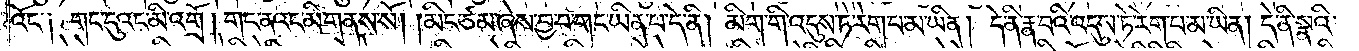འོང༌། གང་དུའང་མི་འགྲོ། གང་ནའང་མི་གནས་སོ། །མིང་ཙམ་ཞེས་བྱ་བ་གང་ཡིན་པ་དེ་ནི། མིག་གི་འདུས་ཏེ་རེག་པ་མ་ཡིན། དེ་ནི་རྣ་བའི་འདུས་ཏེ་རེག་པ་མ་ཡིན། དེ་ནི་སྣའི་
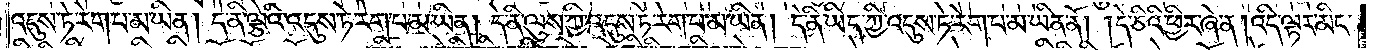འདུས་ཏེ་རེག་པ་མ་ཡིན། དེ་ནི་ལྕེའི་འདུས་ཏེ་རེག་པ་མ་ཡིན། དེ་ནི་ལུས་ཀྱི་འདུས་ཏེ་རེག་པ་མ་ཡིན། དེ་ནི་ཡིད་ཀྱི་འདུས་ཏེ་རེག་པ་མ་ཡིན་ནོ། །དེ་ཅིའི་ཕྱིར་ཞེ་ན། འདི་ལྟར་མིང་
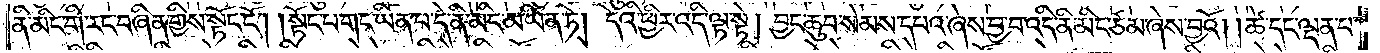ནི་མིང་གི་རང་བཞིན་གྱིས་སྟོང་ངོ༌། །སྟོང་པ་གང་ཡིན་པ་དེ་ནི་མིང་མ་ཡིན་ཏེ། དེའི་ཕྱིར་འདི་ལྟ་སྟེ། བྱང་ཆུབ་སེམས་དཔའ་ཞེས་བྱ་བ་འདི་ནི་མིང་ཙམ་ཞེས་བྱའོ། །ཚེ་དང་ལྡན་པ་
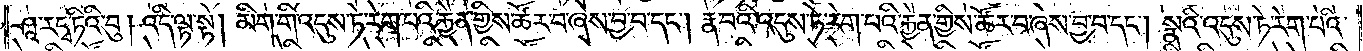ཤཱ་ར་དྭ་ཏིའི་བུ། འདི་ལྟ་སྟེ། མིག་གི་འདུས་ཏེ་རེག་པའི་རྐྱེན་གྱིས་ཚོར་བ་ཞེས་བྱ་བ་དང༌། རྣ་བའི་འདུས་ཏེ་རེག་པའི་རྐྱེན་གྱིས་ཚོར་བ་ཞེས་བྱ་བ་དང༌། སྣའི་འདུས་ཏེ་རེག་པའི་
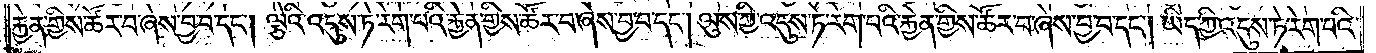རྐྱེན་གྱིས་ཚོར་བ་ཞེས་བྱ་བ་དང༌། ལྕེའི་འདུས་ཏེ་རེག་པའི་རྐྱེན་གྱིས་ཚོར་བ་ཞེས་བྱ་བ་དང༌། ལུས་ཀྱི་འདུས་ཏེ་རེག་པའི་རྐྱེན་གྱིས་ཚོར་བ་ཞེས་བྱ་བ་དང༌། ཡིད་ཀྱི་འདུས་ཏེ་རེག་པའི་
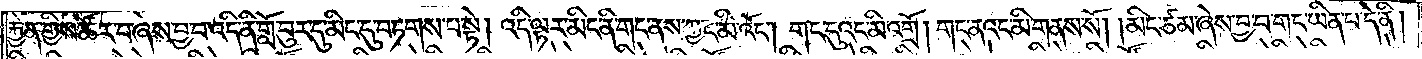རྐྱེན་གྱིས་ཚོར་བ་ཞེས་བྱ་བ་འདི་ནི་གློ་བུར་དུ་མིང་དུ་བཏགས་པ་སྟེ། འདི་ལྟར་མིང་ནི་གང་ནས་ཀྱང་མི་འོང༌། གང་དུའང་མི་འགྲོ། གང་ནའང་མི་གནས་སོ། །མིང་ཙམ་ཞེས་བྱ་བ་གང་ཡིན་པ་དེ་ནི།
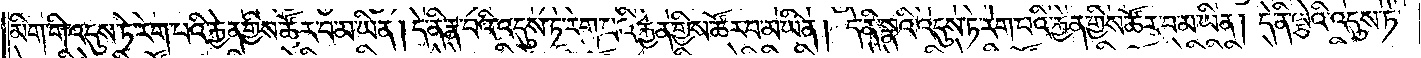མིག་གི་འདུས་ཏེ་རེག་པའི་རྐྱེན་གྱིས་ཚོར་བ་མ་ཡིན། དེ་ནི་རྣ་བའི་འདུས་ཏེ་རེག་པའི་རྐྱེན་གྱིས་ཚོར་བ་མ་ཡིན། དེ་ནི་སྣའི་འདུས་ཏེ་རེག་པའི་རྐྱེན་གྱིས་ཚོར་བ་མ་ཡིན། དེ་ནི་ལྕེའི་འདུས་ཏེ་
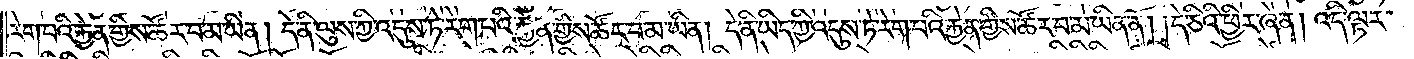རེག་པའི་རྐྱེན་གྱིས་ཚོར་བ་མ་ཡིན། དེ་ནི་ལུས་ཀྱི་འདུས་ཏེ་རེག་པའི་རྐྱེན་གྱིས་ཚོར་བ་མ་ཡིན། ད་ནི་ཡིད་ཀྱི་འདུས་ཏེ་རེག་པའི་རྐྱེན་གྱིས་ཚོར་བ་མ་ཡིན་ནོ། །དེ་ཅིའི་ཕྱིར་ཞེ་ན། འདི་ལྟར་
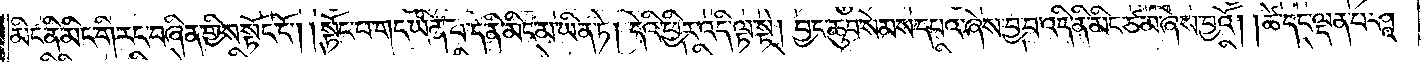མིང་ནི་མིང་གི་རང་བཞིན་གྱིས་སྟོང་ངོ༌། །སྟོང་པ་གང་ཡིན་པ་དེ་ནི་མིང་མ་ཡིན་ཏེ། དེའི་ཕྱིར་འདི་ལྟ་སྟེ། བྱང་ཆུབ་སེམས་དཔའ་ཞེས་བྱ་བ་འདི་ནི་མིང་ཙམ་ཞེས་བྱའོ། །ཚེ་དང་ལྡན་པ་ཤཱ་
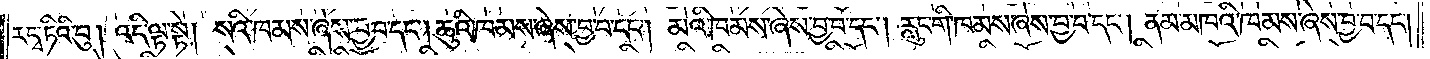ར་དྭ་ཏིའི་བུ། འདི་ལྟ་སྟེ། སའི་ཁམས་ཞེས་བྱ་བ་དང༌། ཆུའི་ཁམས་ཞེས་བྱ་བ་དང༌། མེའི་ཁམས་ཞེས་བྱ་བ་དང༌། རླུང་གི་ཁམས་ཞེས་བྱ་བ་དང༌། ནམ་མཁའི་ཁམས་ཞེས་བྱ་བ་དང༌།
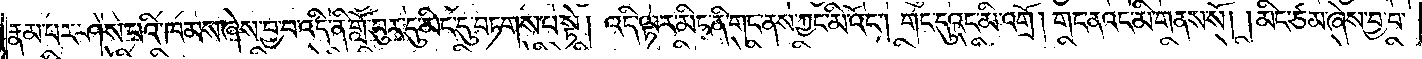རྣམ་པར་ཤེས་པའི་ཁམས་ཞེས་བྱ་བ་འདི་ནི་གློ་བུར་དུ་མིང་དུ་བཏགས་པ་སྟེ། འདི་ལྟར་མིང་ནི་གང་ནས་ཀྱང་མི་འོང༌། གང་དུའང་མི་འགྲོ། གང་ནའང་མི་གནས་སོ། །མིང་ཙམ་ཞེས་བྱ་བ་
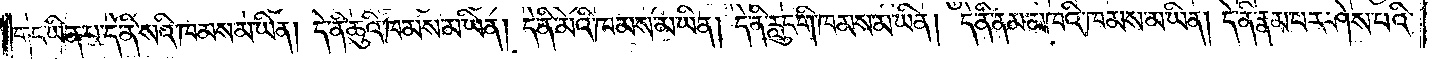གང་ཡིན་པ་དེ་ནི་སའི་ཁམས་མ་ཡིན། དེ་ནི་ཆུའི་ཁམས་མ་ཡིན། དེ་ནི་མེའི་ཁམས་མ་ཡིན། དེ་ནི་རླུང་གི་ཁམས་མ་ཡིན། དེ་ནི་ནམ་མཁའི་ཁམས་མ་ཡིན། དེ་ནི་རྣམ་པར་ཤེས་པའི་
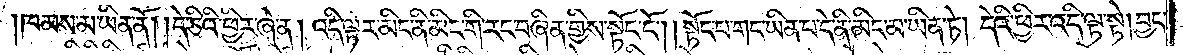ཁམས་མ་ཡིན་ནོ། །དེ་ཅིའི་ཕྱིར་ཞེ་ན། འདི་ལྟར་མིང་ནི་མིང་གི་རང་བཞིན་གྱིས་སྟོང་ངོ༌། །སྟོང་པ་གང་ཡིན་པ་དེ་ནི་མིང་མ་ཡིན་ཏེ། དེའི་ཕྱིར་འདི་ལྟ་སྟེ། བྱང་
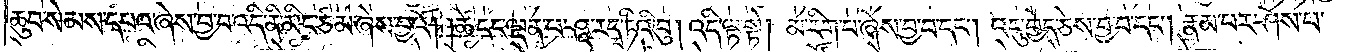ཆུབ་སེམས་དཔའ་ཞེས་བྱ་བ་འདི་ནི་མིང་ཙམ་ཞེས་བྱའོ། །ཚེ་དང་ལྡན་པ་ཤཱ་ར་དྭ་ཏིའི་བུ། འདི་ལྟ་སྟེ། མ་རིག་པ་ཞེས་བྱ་བ་དང༌། འདུ་བྱེད་ཅེས་བྱ་བ་དང༌། རྣམ་པར་ཤེས་པ་
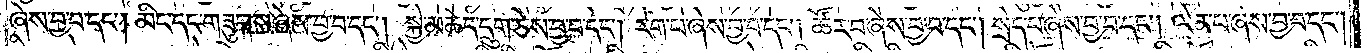ཞེས་བྱ་བ་དང༌། མིང་དང་གཟུགས་ཞེས་བྱ་བ་དང༌། སྐྱེ་མཆེད་དྲུག་ཅེས་བྱ་བ་དང༌། རེག་པ་ཞེས་བྱ་བ་དང༌། ཚོར་བ་ཞེས་བྱ་བ་དང༌། སྲེད་པ་ཞེས་བྱ་བ་དང༌། ལེན་པ་ཞེས་བྱ་བ་དང༌།
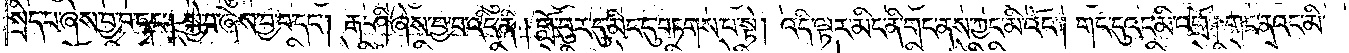སྲིད་པ་ཞེས་བྱ་བ་དང༌། སྐྱེ་བ་ཞེས་བྱ་བ་དང༌། རྒ་ཤི་ཞེས་བྱ་བ་འདི་ནི། གློ་བུར་དུ་མིང་དུ་བཏགས་པ་སྟེ། འདི་ལྟར་མིང་ནི་གང་ནས་ཀྱང་མི་འོང༌། གང་དུའང་མི་འགྲོ། གང་ནའང་མི་
